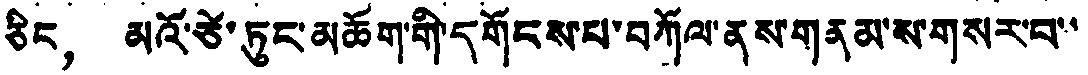ཅིང， མའོ་ཙེ་ཏུང་མཆོག་གི་དགོངས་པ་བཀོལ་ནས་གནམ་ས་གསར་བ་་
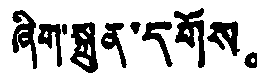ཞིག་སྐྲུན་དགོས。
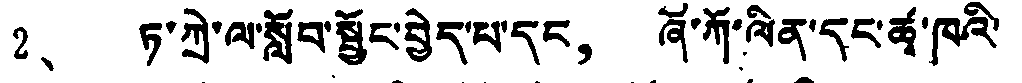2、 ཏ་ཀྲེ་ལ་སློབ་སྦྱོང་བྱེད་པ་དང， ཞོ་ཀོ་ལིན་དང་ཚྭ་ཁའི་
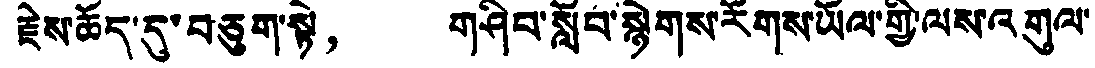རྗེས་ཆོད་དུ་བཅུག་སྟེ， གཤིབ་སློབ་སྙེགས་རོགས་ཡོལ་གྱི་ལས་འགུལ་
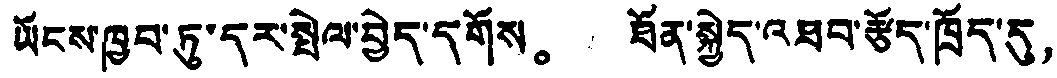ཡོངས་ཁྱབ་ཏུ་དར་སྤེལ་བྱེད་དགོས。 ཐོན་སྐྱེད་འཐབ་རྩོད་ཁྲོད་དུ，
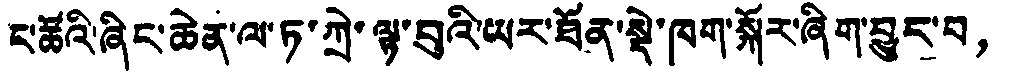ང་ཚོའི་ཞིང་ཆེན་ལ་ཏ་ཀྲེ་ལྟ་བུའི་ཡར་ཐོན་སྡེ་ཁག་སྐོར་ཞིག་བྱུང་བ，
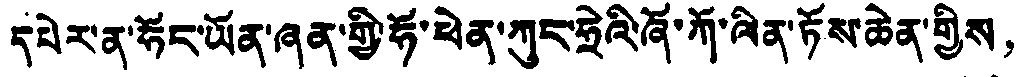དཔེར་ན་ཧོང་ཡོན་ཞན་གྱི་ཧོ་ཕེན་ཀུང་ཧྲེའི་ཞོ་ཀོ་ལིན་ཏོས་ཆེན་གྱིས，
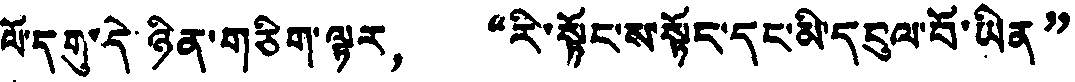ལོ་དགུ་དེ་ཉིན་གཅིག་ལྟར， “རི་སྟོང་ས་སྟོང་དང་མི་དབུལ་བོ་ཡིན”
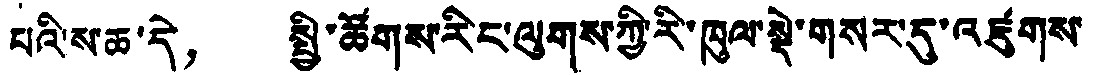པའི་ས་ཆ་དེ， སྤྱི་ཚོགས་རིང་ལུགས་ཀྱི་རི་ཁུལ་སྡེ་གསར་དུ་འཛུགས་
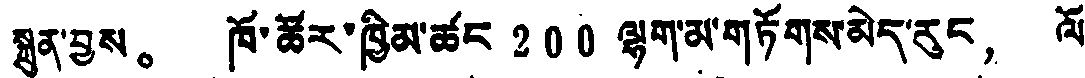སྐྲུན་བྱས。 ཁོ་ཚོར་ཁྱིམ་ཚང 200 ལྷག་མ་གཏོགས་མེད་རུང， ལོ
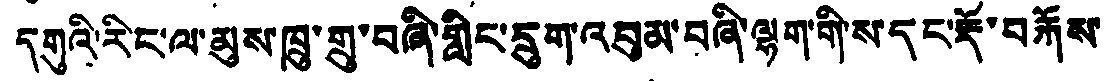དགུའི་རིང་ལ་མུས་ཁྲུ་གྲུ་བཞི་གླིང་དྲུག་འབུམ་བཞི་ལྷག་གི་ས་དང་རྡོ་བརྐོས་
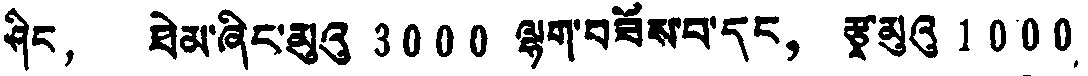ཤིང， ཐེམ་ཞིང་མུའུ 3000 ལྷག་བཟོས་པ་དང， རྩྭ་མུའུ 1000
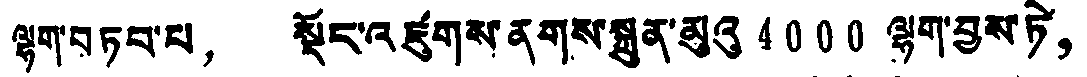ལྷག་བཏབ་པ， སྡོང་འཛུགས་ནགས་སྐྲུན་མུའུ 4000 ལྷག་བྱས་ཏེ，
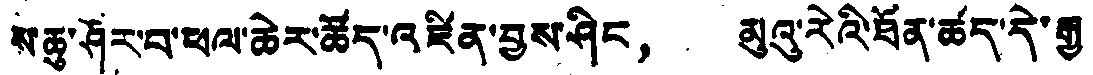ས་ཆུ་ཤོར་བ་ཕལ་ཆེར་ཚོད་འཛིན་བྱས་ཤིང， མུའུ་རེའི་ཐོན་ཚད་དེ་རྒྱ
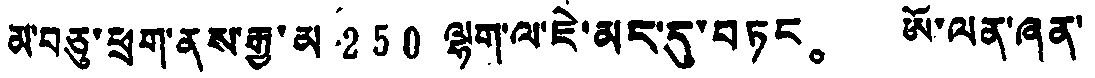མ་བཅུ་ཕྲག་ནས་རྒྱ་མ 250 ལྷག་ལ་ཇེ་མང་དུ་བཏང。 ཨོ་ལན་ཞན་
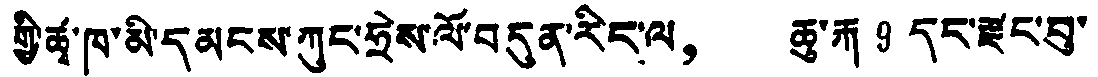གྱི་ཚྭ་ཁ་མི་དམངས་ཀུང་ཧྲེས་ལོ་བདུན་རིང་ལ， ཆུ་རྐ 9 དང་རྫང་བུ་
